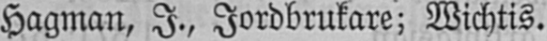Hagman, I., Jordbrukare; Wichtis.
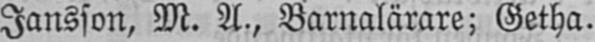Jansson, M. A., Barnalärare; Getha.
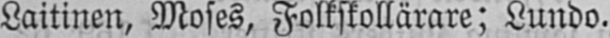Laitinen, Moses, Folkskollärare; Lundo.
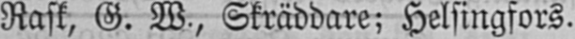Rask, G. W, Skräddare; Helsingfors.
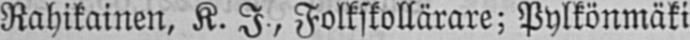Rahikainen, K. I, Folkskollärare; Pylkönmäki
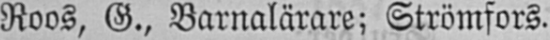Roos, G., Barnalärare; Strömfors.
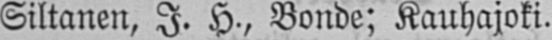Siltanen, I. H,, Bonde; Kauhajoki.
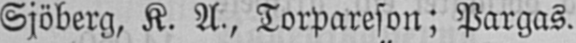Sjöberg, K. A., Torpareson; Pargas.
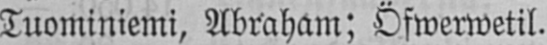Tuominiemi, Abraham; Öfwerwetil.
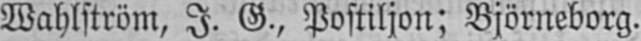Wahlström, I. G., Postiljon; Björneborg.
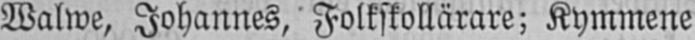Walwe, Johannes, Folkskollärare; Kymmene.
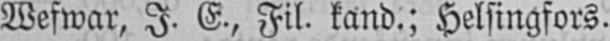Wefwar, I. E., Fil. kand.; Helsingfors.
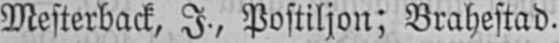Mesterback, I., Postiljon; Brahestad.
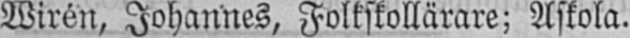Wirén, Johannes, Folkskollärare; Askola.
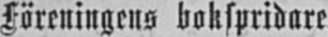Föreningens bokspridare.
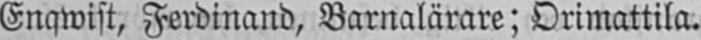Enqwist, Ferdinand, Barnalärare; Orimattila.
